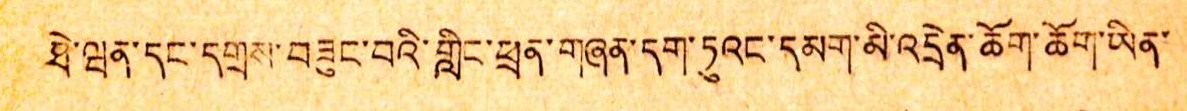ཐེ་ཝན་དང་དགྲས་བཟུང་བའི་གླིང་ཕྲན་གཞན་དག་ཏུའང་དམག་མི་འདྲེན་ཆོག་ཆོག་ཡིན་
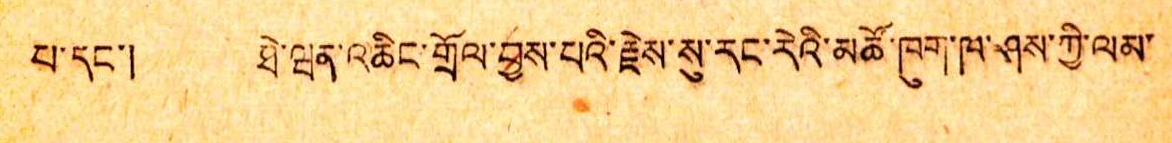པ་དང་། ཐེ་ཝན་འཆིང་གྲོལ་བྱས་པའི་རྗེས་སུ་རང་རེའི་མཚོ་ཁུག་ཁ་ཤས་ཀྱི་ལམ་
